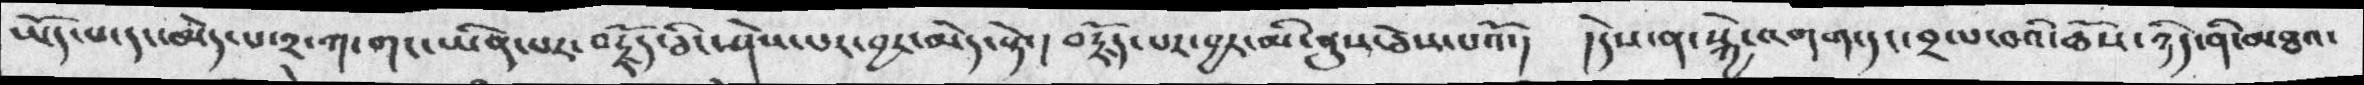ཡོད་པ་དང་མེད་པ་༢་ཀ་གང་ཡིན་པར་བརྗོད་མི་ཤེས་པར་བྱར་མེད་སྟེ་། བརྗོད་པར་བྱར་མི་ནུས་ཅེས་པའོ་།  །དེས་ན་སྐྱེ་འགག་དང་བྲ་བའི་ཆོས་ཉིད་ནི་མཐའ་
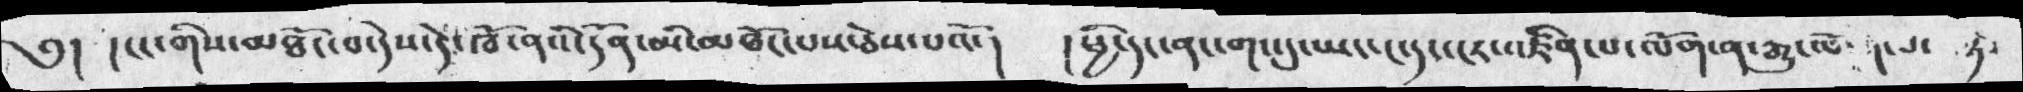༅།   ། ངང་གིས་མཐོང་བ་དེས་དེ་ཁོ་ནའི་དོན་མི་མཐོང་པས་པའོ་།    ། ཕྱི་དང་ནང་གང་དུ་ཡང་ངར་འཛིན་པ་ལོག་ན་རྒྱུ་ཚོགས་སྟེ་
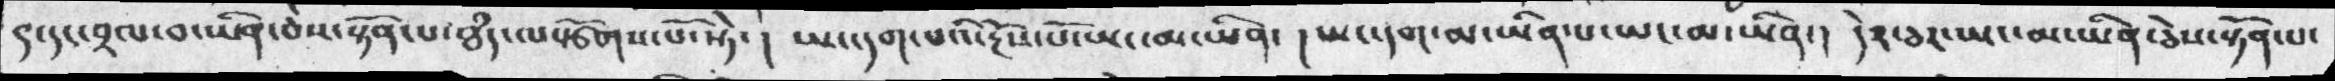༩་དང་བྲལ་བ་ཡིན་ཅེས་སྟོན་པ་ཐཾད་ལསྩོགས་པོ་སྟེ་།   ཡང་དག་པའི་རྔོས་པོ་ཡང་མ་ཡིན་ ། ཡང་དག་མ་ཡིན་པ་ཡང་མ་ཡིན་།  དེ༢ཅར་ཡང་མ་ཡིན་ཅེས་སྟོན་པ་
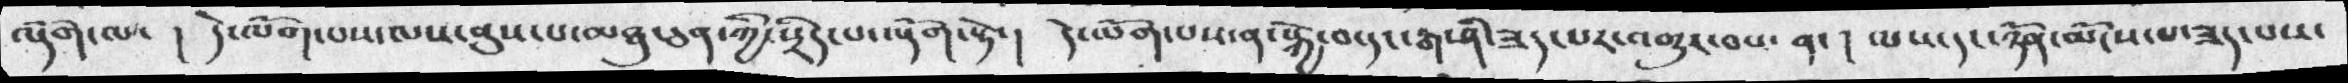ལྡོག་ལ་ ། དེ་ལོག་པས་ལས་ནུས་པ་མཐུ་ཅན་ཀྱི་སྲིད་པ་ལྡོག་སྟེ་།  དེ་ཡོག་པས་ན་སྐྱེ་བ་དང་རྒ་ཤི་ཟད་པར་འགྱུར་བས་ན་། ལས་དང་ཉོན་མོངས་པ་ཟད་པས་
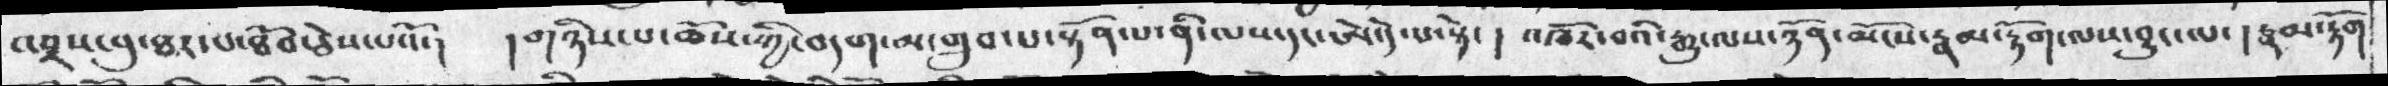འབྲས་བུ་ཐར་པ་ཐོབ་ཅེས་པའོ་།  །གཉིས་པ་ཆོས་ཀྱི་བདག་མ་གྲུབ་པ་སྟོན་པ་ནི་ལས་དང་ཨེ་དེ་པ་སྟེ་ ། འཁོར་བའི་རྒྱུ་ལས་ཉོན་མོངས་རྣམ་རྟོག་ལས་བྱུང་ལ་ ། རྣམ་རྟོག
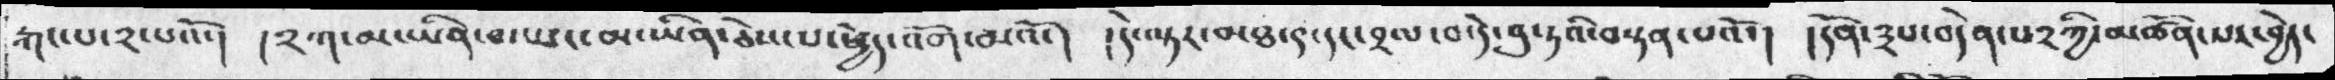རྐང་པ་༢་པའོ་།  །༢ཀ་མ་ཡིན་བ་ཡང་མ་ཡིན་ཅེས་པ་ཕྱེད་འོག་མའོ་།  །དེ་ལྟར་མཐ་༩་དང་བྲལ་བ་དེ་བུ་ཏའི་བསྟན་པའོ་།  །དོན་༣པ་བདེན་པ༢ཀྱི་མཚོན་པར་བྱེད་
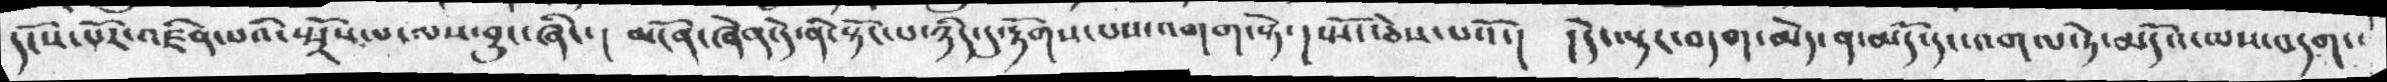དངོས་པོར་འཛིན་པའི་སྤྲོས་པ་ལས་བྱུང་ཞིང་།  མངོན་ཞེན་དེ་ནི་སྟོང་པ་ཉིད་དུ་རྟོགས་པས་འགག་སྟེ་།  སྤོང་ཅེས་པའོ་།  །དེ་ལྟར་བདག་མེད་ན་མདོ་དང་འགལ་ཏེ་མདོའ་ལས་བདག་་
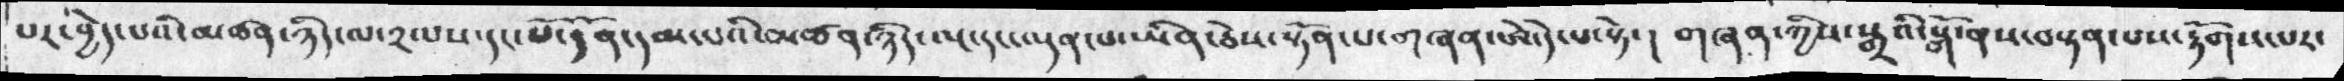པར་བྱེད་པའི་མཚན་ཉིད་ལ་༢ལས་དང་པོ་དོན་དམ་པའི་མཚན་ཉིད་ལྔ་དང་ལྡན་པ་ཡིན་ཅེས་སྟོན་པ་གཞན་ཨེ་དེ་པ་སྟེ་།  གཞན་ཀྱིས་སྒྲའི་སྒོ་ནས་བསྟན་པས་རྟོགས་པར་
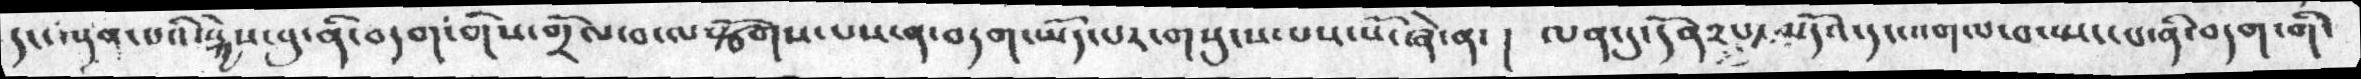དང་ལྡན་པའི་སྐྱེས་བུ་ནི་བདག་གིས་གྲེལ་བ་ལསྩོགས་པས་ན་བདག་ཡོད་པར་གསུངས་པས་སོ་ཞེ་ན་།  ལན་དུ་དོན༢པ་མདོའ་དང་འགལ་བ་སྤང་པ་ནི་བདག་གི་
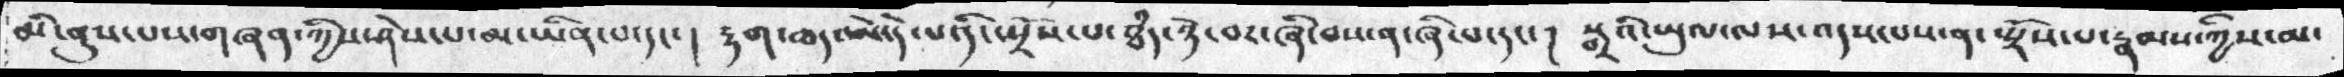མི་ནུས་པས་གཞས་གྱིས་ཤེསཔ་མ་ཡིན་པ་དང་། རྟག་ཆད་ཨེ་དེ་པ་དི་སྤྲོས་པ་ཐཾད་ཉེ་བར་ཞི་བས་ན་ཞི་པ་དང་། སྒྲའི་ཡུལ་ལས་འདས་པས་ན་སྤྲོས་པ་རྣམས་ཀྱིས་མ་
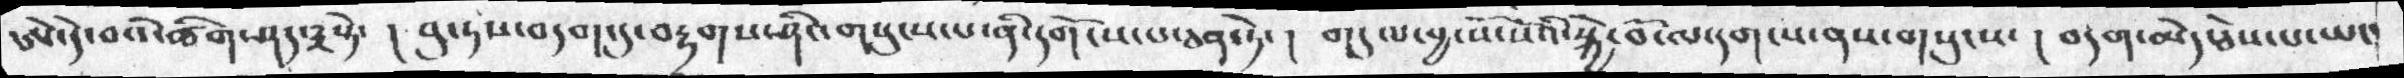ཨེ་དེ་བའི་ཚིག་ཤད་༣སྟེ་   ། བུ་ཏས་བདག་དུ་བརྟགས་ཤིང་གསུངས་པ་ནི་དགོངས་པ་ཅན་ཏེ་ ། གདུལ་བྱ་སོ་སོའི་སྐྱེ་བོ་ལ་དག་ས་ནས་གསུངས་  ། བདག་མེད་ཅེས་པ་ཡང་
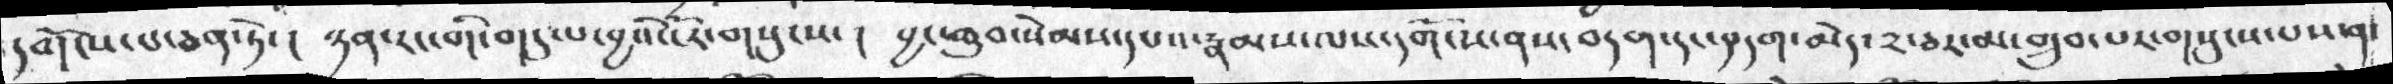དགོངས་པ་ཅན་ཏེ་ ། ཉན་རང་གི་གདུལ་བྱའི་ངོར་གསུངས་ །  བྱང་ཆུབ་སེམས་དཔའ་རྣམས་ལས་དགོངས་ནས་བདག་དང་བདག་མེད་༢་ཅར་མ་གྲུབ་པར་གསུངས་པས་ན་
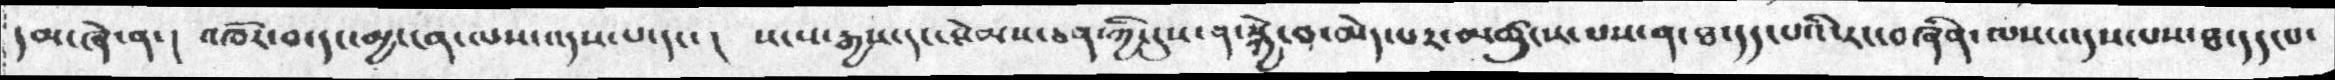དམ་ཞེ་ན་ ། འཁོར་བ་དང་མྱ་ངན་ལས་འདས་པ་དང་  ། སངས་རྒྱས་དང་སེམས་ཅན་ཀྱི་དུས་ན་སྐྱེ་བ་མེད་པར་མཚུངས་པས་ན་ཐ་དད་པའི་རང་བཞིན་ལས་འདས་པས་ཐ་དད་པ་
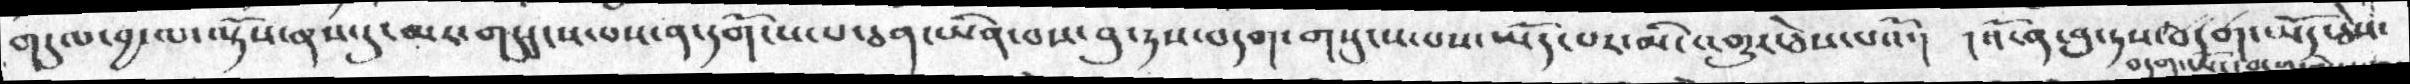གདུལ་བྱ་ལ་ལྟོས་ནས་དུ་མར་གདུདངས་པས་ན་དགོངས་པ་ཅན་ཡིན་པས་བུ་ཏས་བདག་གསུངས་པས་ཡོད་པར་མི་འགྱུར་ཅེས་པའོ་།  ། འོ་ན་བུ་ཏས་བདག་ཡོད་ཅེས་
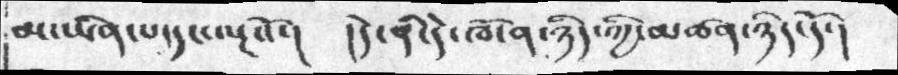མ་ཡིན་པ་དང་ལྔའོ་    །        །དེ་ནི་དེ་ཁོ་ན་ཉིད་ཀྱི་མཚན་ཉིད་དོ་།
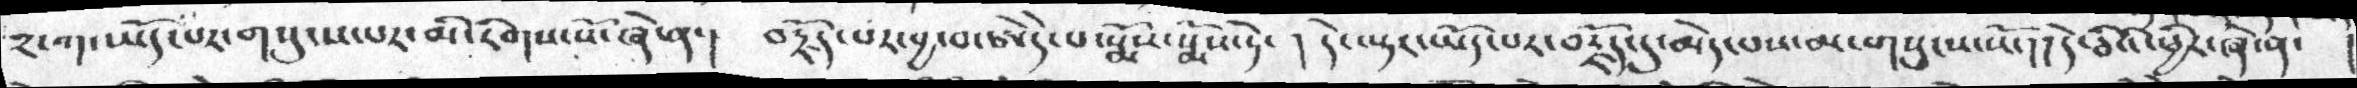༢་ག་ཡོད་པར་གསུངས་པར་མི་རིགས་སོ་ཞེ་ན་།   བརྗོད་པར་བྱ་བ་ཨེ་དེ་པ་སྨོས་སྨོས་ཏེ་  ། དེ་ལྟར་ཡོད་པར་བརྗོད་དུ་མེད་པས་མ་གསུངས་སོ་།། དེ་ཅིའི་ཕྱིར་ཞེ་ན་    །
